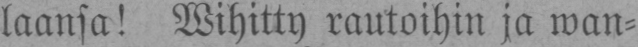laansa! Wihitty rautoihin ja wan-
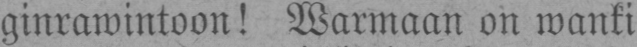ginrawintoon! Warmaan on wanki
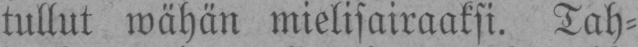tullut wähän mielisairaaksi. Tah-
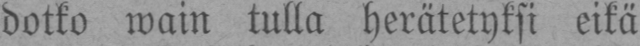dotko wain tulla herätetyksi eikä
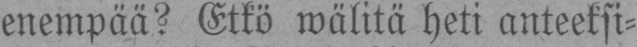enempää? Etkö wälitä heti anteeksi-
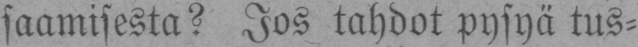saamisesta? Jos tahdot pysyä tus-
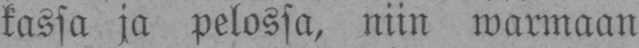kassa ja pelossa, niin warmaan
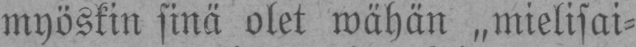myöskin sinä olet wähän „mielisai-
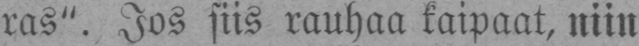ras". Jos siis rauhaa kaipaat, niin
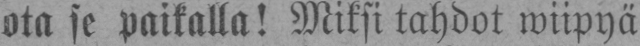ota se paikalla! Miksi tahdot wiipyä
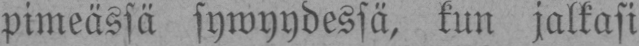pimeässä sywyydessä, kun jalkasi
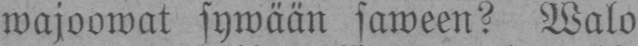wajoowat sywään saween? Walo
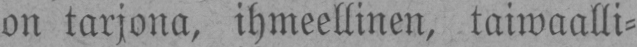on tarjona, ihmeellinen, taiwaalli-
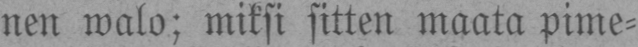nen walo; miksi sitten maata pime-
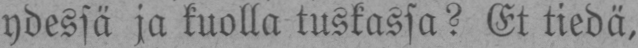ydessä ja kuolla tuskassa? Et tiedä,
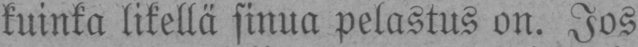kuinka likellä sinua pelastus on. Jos
